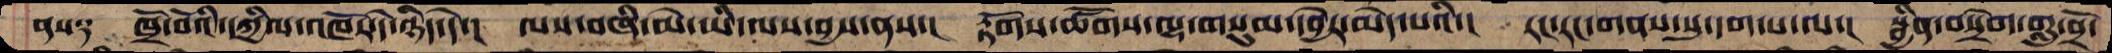ནས༑  ཁྲོ་བོའི་དཀྱིལ་འཁོར་དེ་ཉིད་དེ་།  ལས་བཞི་མེ་ཡི་ལས་བྱས་ནས་།  རྟོགས་ཚོགས་ལྷ་གསུམ་དབྱེར་མེད་པའི་།  རང་རང་གནས་སུ་དག་པ་ལ་།  སྦྱིན་བསྲེག་གླུ་བྲོ་
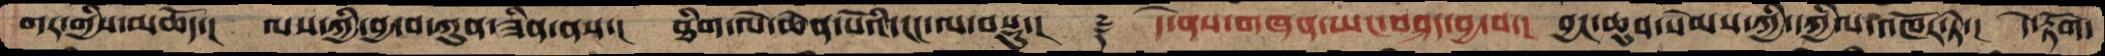གར་གྱིས་མཆོད་།  ལས་ཀྱི་བྱ་བ་ཀུན་ཟིན་ནས་།  ཐིག་ལེ་ཆེན་པོའི་ངང་ལ་བསྡུ་།  ༈  དེ་ནས་གཞན་ཡང་བཤད་བྱ་བ་།  བྱང་ཆུབ་སེམས་ཀྱི་དཀྱིལ་འཁོར་ཏེ་།  དེ་རྟོག་
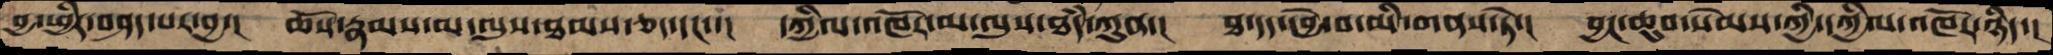བྱ་ཕྱིར་བཤད་པར་བྱ་།  ཆོས་རྣམས་མ་ལུས་ཐམས་ཅད་དང་་།  དཀྱིལ་འཁོར་མ་ལུས་ཐཾད་ཀུན་།  ཐ་དད་དབྱེ་བ་མི་གནས་ཏེ་།  བྱང་ཆུབ་སེམས་ཀྱི་དཀྱིལ་འཁོར་ཉིད་།
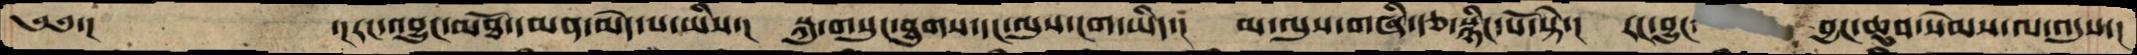༄༅་།         ་།རང་འབྱུང་མཐོ་དམན་མེད་པ་ཡིས་།  སྐུ་གསུང་ཐུགས་དང་ལུས་ངག་ཡིད་།  མ་ལུས་གཞི་རྩ་སྙིང་པོ་སྟེ་།  རང་བྱུང་   བྱང་ཆུབ་སེམས་ལ་འདུས་།
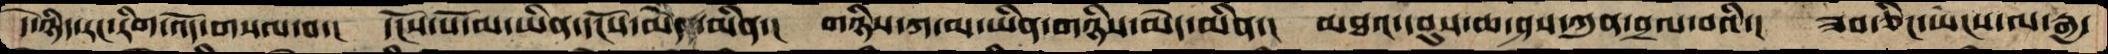དེ་ཉིད་རང་རིག་འོད་གསལ་བ་།  དངོས་པོ་མ་ཡིན་དངོས་མེད་མིན་།  གཉིས་ཀ་མ་ཡིན་གཉིས་མེད་མིན་།  མཐའ་དབུས་ཆ་ཤས་ཀུན་བྲལ་བའི་།  ཟབ་ཅིང་ཡངས་ལ་རྒྱ་
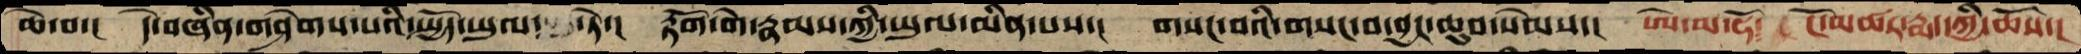ཆེ་བ་། དེ་བཞིན་གཤེགས་པའི་སྤྱོད་ཡུལ་ ཏེ་།  རྟོག་གེ་རྣམས་ཀྱི་ཡུལ་མིན་པས་།  གསང་བའི་གསང་བ་བྱང་ཆུབ་སེམས་།  ཨེ་མ་ཧོ།  ངོ་མཚར་རྨད་ཀྱི་ཆོས་།
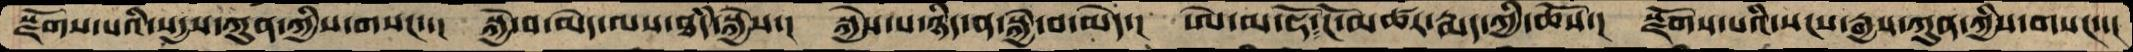སྫོགས་པའི་སདྱས་ཀུན་ཀྱིས་གསང་་།  སྐྱེ་བ་མེད་ལས་ཐཾད་སྐྱེས་།  སྐྱེས་པ་ཉིད་ན་སྐྱེ་བ་མེད་།  ཨེ་མ་ཧོ་ངོ་མཚར་སྨད་ཀྱི་ཆོས་།  སྫོགས་པའི་སངས་རྒྱས་ཀུན་ཀྱིས་གསང་་།
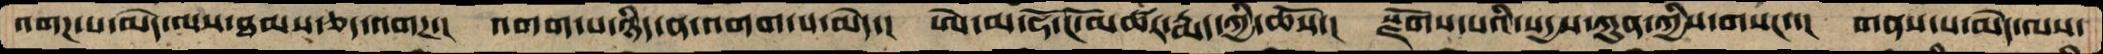འགཌ་པ་མེད་ལས་ཐམས་ཅད་འགཌ་།  འགག་པ་ཉིད་ན་འགག་པ་མེད་།  ཨེ་མ་ཧོ་ངོ་མཚར་རྨད་ཀྱི་ཆོས་།  སྫོགས་པའི་སདྱས་ཀུན་ཀྱིས་གསང་་།  གནས་པ་མེད་ལས་
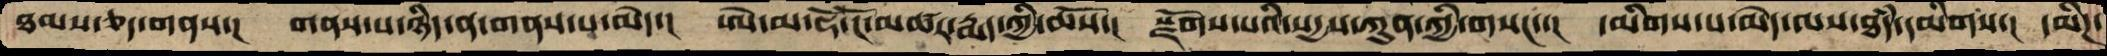ཐམས་ཅད་གནས་།  གནས་པ་ཉིད་ན་གནས་པ་མེད་།  ཨེ་མ་ཧོ་ངོ་མཚར་རྨད་ཀྱི་ཆོས་།  སྫོགས་པའི་སདྱས་ཀུན་ཀྱི་གསང་་།  དམིགས་པ་མེད་ལས་ཐཾད་དམིགས་།  དམིཌ་
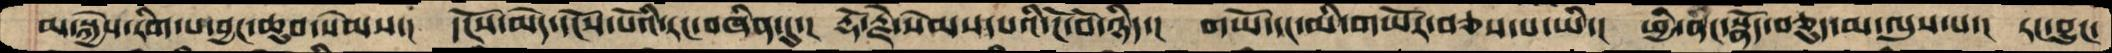མ་སྐྱེས་རིག་པ་བྱང་ཆུབ་སེམས་།   དངོས་མེད་དངོས་པོའི་རང་བཞིན་དུ་།  རྡོ་རྗེ་སེམས་དཔའི་ངོ་བོ་ཉིད་།  གཡོ་དང་མི་གཡོར་བཅས་པ་ཡི་།  ཕྱི་ནང་སྣོད་བཅུད་མ་ལུས་པ་།  རང་བྱུང་
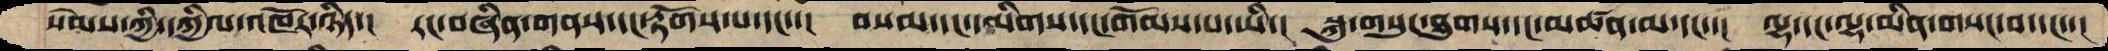སེམས་ཀྱི་དཀྱིལ་འཁོར་ཉིད་།  རང་བཞིན་གནས་དང་རྟོགས་པ་དང་་།  བསམ་དང་དམིགས་དང་གོམས་པ་ཡི་།  སྐུ་གསུང་ཐུགས་དང་མཚན་མ་དང་་།  ལྷ་དང་ལྷ་མིན་གསང་བ་དང་་།
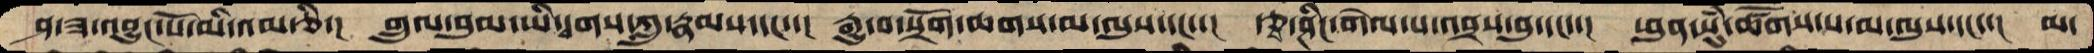ཤ་ཟ་འབྱུང་པོ་མི་འམ་ཅི་།  གྲུལ་བུམ་ཡི་དྭགས་ཀླུ་རྣམས་དང་་།  རྒྱུ་བ་སྲོག་ཆགས་མ་ལུས་དང་་།  རྩྭ་ཤིང་གེལ་པ་འབྲས་བུ་དང་་།  ཕུན་སུཾ་ཚོགས་པ་མ་ལུས་དང་་།  མ་
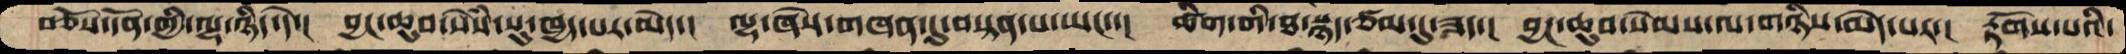བཅོས་དོན་གྱི་ལྷ་ཉིད་དེ་།  བྱང་ཆུབ་སེཾས་སུ་ཁྱད་པར་མེད་།  ལྷ་ཞེས་གཞན་དུ་བསྟན་པ་ཡང་་།  ཚིག་གི་ཐ་སྙད་ཙམ་དུ་ཟད་།  བྱང་ཆུབ་སེམས་ལ་གཉིས་མེད་པར་།  རྟོགས་པའི་
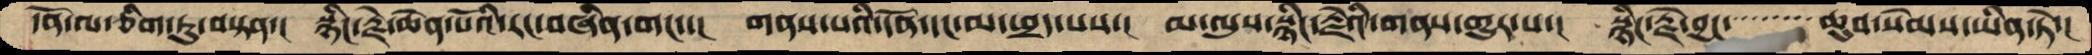དོན་ལ་ཅིག་ཏུ་བསྟན་།  སྙིང་རྗེ་ཆེན་པོའི་རང་བཞིན་གང་་།  གནས་པའི་དོན་དང་མ་ཕྲད་པས་།  མ་ལུས་སྙིང་རྗེའི་གནས་གྱུར་པ་།  སྙིང་རྗེ་བྱང་་་་་་་་ཆུབ་སེམས་ཡིན་ཏེ་།
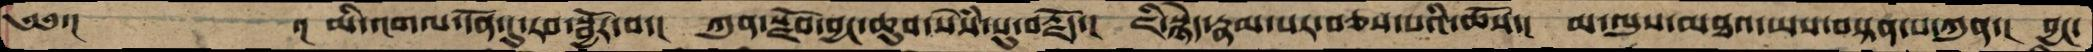༄༅་།         ་། མི་འགལ་དོན་དུ་རབ་སྦྱོར་བ་།  ཀུན་སྫོབ་བྱང་ཆུབ་སེཾས་སུ་བརྗོད་།  ཇི་སྙེད་རྣམ་པར་བཅས་པའི་ཆོས་།  མ་ལུས་མཐའ་ཡས་བསྟན་པ་ཀུན་།  བྱང་
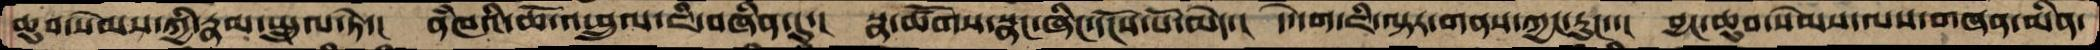ཆུབ་སེམས་ཀྱི་རྣམ་སྤྲུལ་ཏེ་།  ནཾཁའི་ཆོ་འཕྲུལ་ཇི་བཞིན་དུ་།  སྣ་ཚོགས་སྣང་ཞིང་དངོས་པོ་མེད་།  དེ་དག་ཇི་ལྟར་གནས་ཀྱང་རུང་་།  བྱང་ཆུབ་སེམས་ལས་གཞན་མིན་
